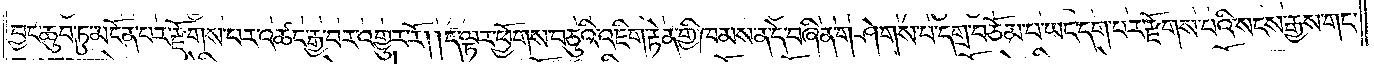བྱང་ཆུབ་ཏུ་མངོན་པར་རྫོགས་པར་འཚང་རྒྱ་བར་འགྱུར་རོ། །ད་ལྟར་ཕྱོགས་བཅུའི་འཇིག་རྟེན་གྱི་ཁམས་ན་དེ་བཞིན་གཤེགས་པ་དགྲ་བཅོམ་པ་ཡང་དག་པར་རྫོགས་པའི་སངས་རྒྱས་གང་
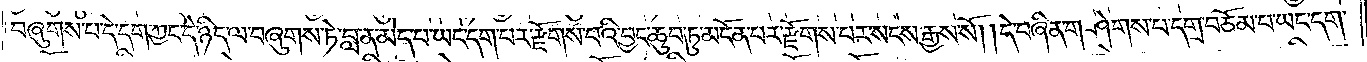བཞུགས་པ་དེ་དག་ཀྱང་དེ་ཉིད་ལ་བཞུགས་ཏེ་བླ་ན་མེད་པ་ཡང་དག་པར་རྫོགས་པའི་བྱང་ཆུབ་ཏུ་མངོན་པར་རྫོགས་པར་སངས་རྒྱས་སོ། །དེ་བཞིན་གཤེགས་པ་དགྲ་བཅོམ་པ་ཡང་དག་
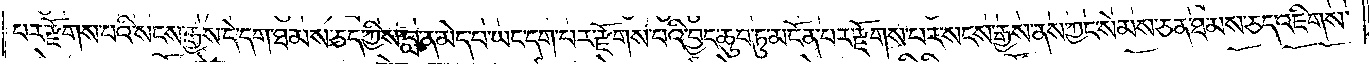པར་རྫོགས་པའི་སངས་རྒྱས་དེ་དག་ཐམས་ཅད་ཀྱིས་བླ་ན་མེད་པ་ཡང་དག་པར་རྫོགས་པའི་བྱང་ཆུབ་ཏུ་མངོན་པར་རྫོགས་པར་སངས་རྒྱས་ནས་ཀྱང་སེམས་ཅན་ཐམས་ཅད་འཇིགས་
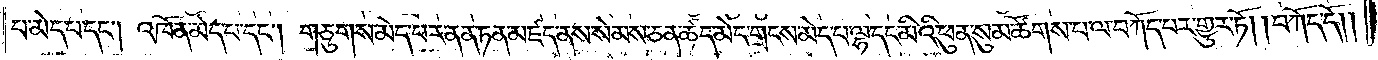པ་མེད་པ་དང༌། འཁོན་མེད་པ་དང༌། གཅུགས་མེད་པར་ནན་ཏན་མཛད་ནས་སེམས་ཅན་ཚད་མེད་གྲངས་མེད་པ་ལྷ་དང་མིའི་ཕུན་སུམ་ཚོགས་པ་ལ་བཀོད་པར་གྱུར་ཏོ། །བཀོད་དོ༎
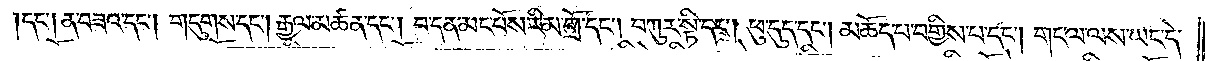དང༌། ན་བཟའ་དང༌། གདུགས་དང༌། རྒྱལ་མཚན་དང༌། བ་དན་མང་པོས་རིམ་གྲོ་དང༌། བཀུར་སྟི་དང༌། ཕུ་དུད་དང༌། མཆོད་པ་བགྱིས་པ་དང༌། གང་ལ་ལས་ཡང་དེ་
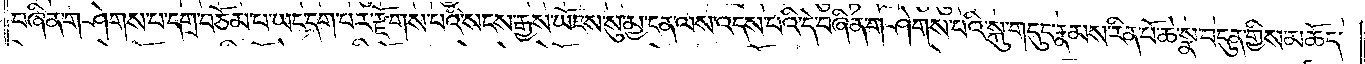བཞིན་གཤེགས་པ་དགྲ་བཅོམ་པ་ཡང་དག་པར་རྫོགས་པའི་སངས་རྒྱས་ཡོངས་སུ་མྱ་ངན་ལས་འདས་པའི་དེ་བཞིན་གཤེགས་པའི་སྐུ་གདུང་རྣམས་རིན་པོ་ཆེ་སྣ་བདུན་གྱིས་མཆོད་
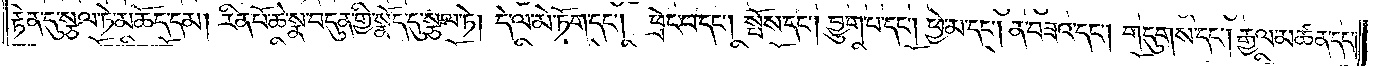རྟེན་དུ་བསྩལ་ཏེ་མཆོད་དམ། རིན་པོ་ཆེ་སྣ་བདུན་གྱི་སྣོད་དུ་བསྩལ་ཏེ། དེ་ལ་མེ་ཏོག་དང༌། ཕྲེང་བ་དང༌། སྤོས་དང༌། བྱུག་པ་དང༌། ཕྱེ་མ་དང༌། ན་བཟའ་དང༌། གདུགས་དང༌། རྒྱལ་མཚན་དང༌།
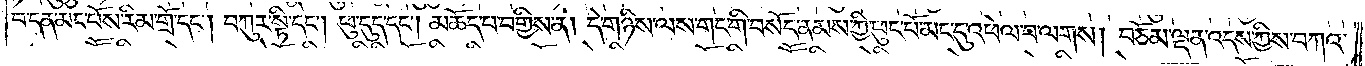བ་དན་མང་པོས་རིམ་གྲོ་དང༌། བཀུར་སྟི་དང༌། ཕུ་དུད་དང༌། མཆོད་པ་བགྱིས་ན། དེ་གཉིས་ལས་གང་གི་བསོད་ནམས་ཀྱི་ཕུང་པོ་མང་དུ་འཕེལ་བ་ལགས། བཅོམ་ལྡན་འདས་ཀྱིས་བཀའ་
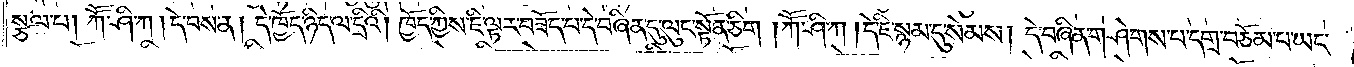སྩལ་པ། ཀཽ་ཤི་ཀ། དེ་བས་ན། དེ་ཁྱོད་ཉིད་ལ་དྲིའི། ཁྱོད་ཀྱིས་ཇི་ལྟར་བཟོད་པ་དེ་བཞིན་དུ་ལུང་སྟོན་ཅིག །ཀཽ་ཤི་ཀ། དེ་ཇི་སྙམ་དུ་སེམས། དེ་བཞིན་གཤེགས་པ་དགྲ་བཅོམ་པ་ཡང་
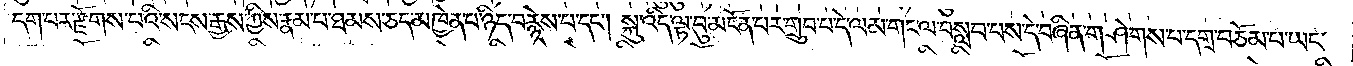དག་པར་རྫོགས་པའི་སངས་རྒྱས་ཀྱིས་རྣམ་པ་ཐམས་ཅད་མཁྱེན་པ་ཉིད་བརྙེས་པ་དང༌། སྐུ་འདི་ལྟ་བུ་མངོན་པར་གྲུབ་པ་དེ་ལམ་གང་ལ་བསླབས་པས་དེ་བཞིན་གཤེགས་པ་དགྲ་བཅོམ་པ་ཡང་
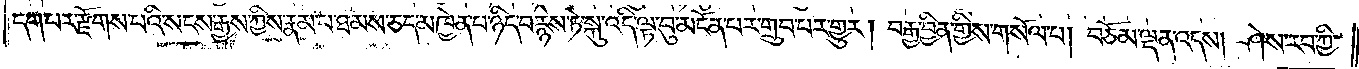དག་པར་རྫོགས་པའི་སངས་རྒྱས་ཀྱིས་རྣམ་པ་ཐམས་ཅད་མཁྱེན་པ་ཉིད་བརྙེས་ཏེ་སྐུ་འདི་ལྟ་བུ་མངོན་པར་གྲུབ་པར་གྱུར། བརྒྱ་བྱིན་གྱིས་གསོལ་པ། བཅོམ་ལྡན་འདས། ཤེས་རབ་ཀྱི་
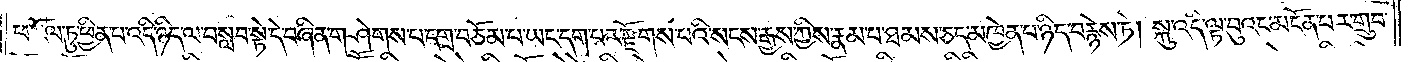ཕ་རོལ་ཏུ་ཕྱིན་པ་འདི་ཉིད་ལ་བསླབ་སྟེ་དེ་བཞིན་གཤེགས་པ་དགྲ་བཅོམ་པ་ཡང་དག་པར་རྫོགས་པའི་སངས་རྒྱས་ཀྱིས་རྣམ་པ་ཐམས་ཅད་མཁྱེན་པ་ཉིད་བརྙེས་ཏེ། སྐུ་འདི་ལྟ་བུ་འང་མངོན་པར་གྲུབ་
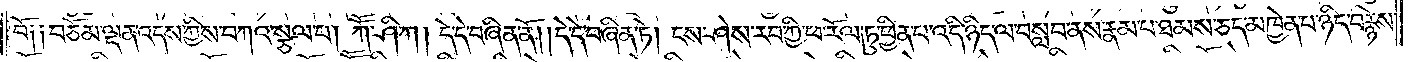བོ༑ ༑བཅོམ་ལྡན་འདས་ཀྱིས་བཀའ་སྩལ་པ། ཀཽ་ཤི་ཀ། དེ་དེ་བཞིན་ནོ། །དེ་དེ་བཞིན་ཏེ། ངས་ཤེས་རབ་ཀྱི་ཕ་རོལ་ཏུ་ཕྱིན་པ་འདི་ཉིད་ལ་བསླབས་ནས་རྣམ་པ་ཐམས་ཅད་མཁྱེན་པ་ཉིད་བརྙེས་
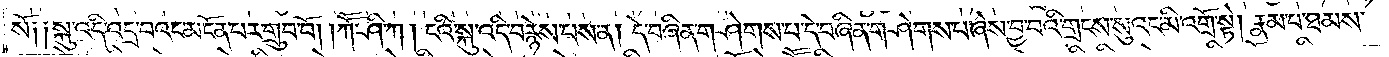སོ༑ ༑སྐུ་འདི་འདྲ་བའང་མངོན་པར་གྲུབ་བོ། །ཀཽ་ཤི་ཀ། ངའི་སྐུ་འདི་བརྙེས་པས་ན། དེ་བཞིན་གཤེགས་པ་དེ་བཞིན་གཤེགས་པ་ཞེས་བྱ་བའི་གྲངས་སུའང་མི་འགྲོ་སྟེ། རྣམ་པ་ཐམས་
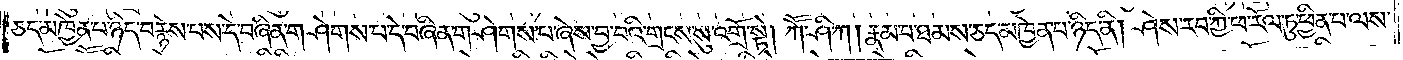ཅད་མཁྱེན་པ་ཉིད་བརྙེས་པས་དེ་བཞིན་གཤེགས་པ་དེ་བཞིན་གཤེགས་པ་ཞེས་བྱ་བའི་གྲངས་སུ་འགྲོ་སྟེ། ཀཽ་ཤི་ཀ། རྣམ་པ་ཐམས་ཅད་མཁྱེན་པ་ཉིད་ནི། ཤེས་རབ་ཀྱི་ཕ་རོལ་ཏུ་ཕྱིན་པ་ལས་
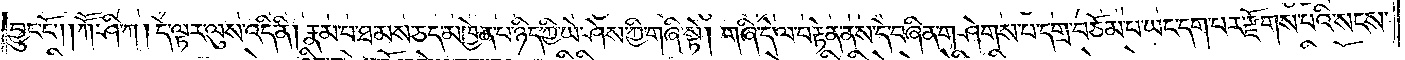བྱུང་ངོ༌། །ཀཽ་ཤི་ཀ། དེ་ལྟར་ལུས་འདི་ནི། རྣམ་པ་ཐམས་ཅད་མཁྱེན་པ་ཉིད་ཀྱི་ཡེ་ཤེས་ཀྱི་གཞི་སྟེ། གཞི་དེ་ལ་བརྟེན་ནས་དེ་བཞིན་གཤེགས་པ་དགྲ་བཅོམ་པ་ཡང་དག་པར་རྫོགས་པའི་སངས་
